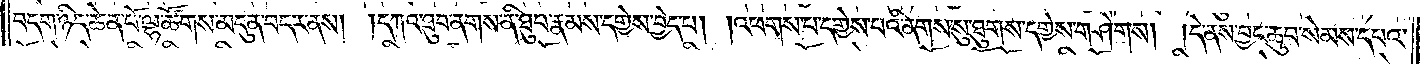བདག་ཉིད་ཆེན་པོ་ལྷ་ཚོགས་མདུན་བདར་ནས། །དཀའ་ཐུབ་ནགས་ནི་ཐུབ་རྣམས་དགྱེས་བྱེད་པ། །འཕགས་པ་དགྱེས་པའི་ནགས་སུ་ཐུགས་དགྱེས་གཤེགས། །དེ་ནས་བྱང་ཆུབ་སེམས་དཔའ་
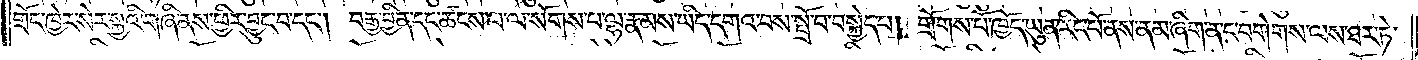གྲོང་ཁྱེར་སེར་སྐྱའི་གཞི་ནས་ཕྱིར་བྱུང་བ་དང༌། བརྒྱ་བྱིན་དང་ཚངས་པ་ལ་སོགས་པ་ལྷ་རྣམས་ཡིད་དགའ་བས་སྤྲོ་བ་བསྐྱེད་པ། གྲོགས་པོ་ཁྱོད་ཡུན་རིང་པོ་ནས་ནམ་ཞིག་ན་ང་བགེགས་ལས་ཐར་ཏེ་
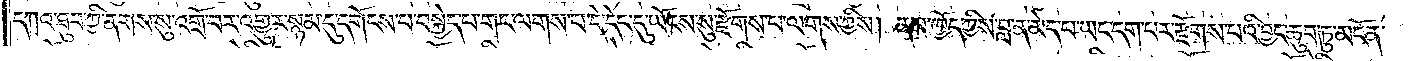དཀའ་ཐུབ་ཀྱི་ནགས་སུ་འགྲོ་བར་འགྱུར་སྙམ་དུ་དགོངས་པ་བསྐྱེད་པ་གང་ལགས་པ་དེ་དེང་དུ་ཡོངས་སུ་རྫོགས་པ་ལགས་ཀྱིས། ནམ་ཁྱོད་ཀྱིས་བླ་ན་མེད་པ་ཡང་དག་པར་རྫོགས་པའི་བྱང་ཆུབ་ཏུ་མངོན་
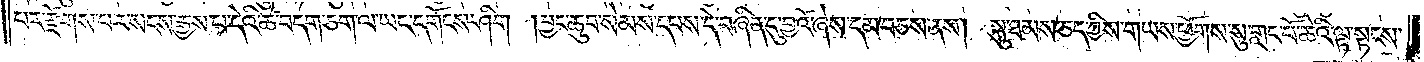པར་རྫོགས་པར་སངས་རྒྱས་པ་དེའི་ཚེ་བདག་ཅག་ལ་ཡང་དགོངས་ཤིག །བྱང་ཆུབ་སེམས་དཔས་དེ་བཞིན་དུ་བྱའོ་ཞེས་དམ་བཅས་ནས། སྐུ་ཐམས་ཅད་ཀྱིས་གཡས་ཕྱོགས་སུ་གླང་པོ་ཆེའི་ལྟ་སྟངས་
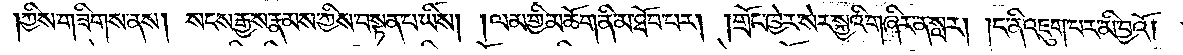།ཀྱིས་གཟིགས་ནས། སངས་རྒྱས་རྣམས་ཀྱིས་བསྟན་པ་ཡིས། །ལམ་གྱི་མཆོག་ནི་མ་ཐོབ་པར། །གྲོང་ཁྱེར་སེར་སྐྱའི་གཞིར་ན་སླར། །ང་ནི་འཇུག་པར་མི་བྱའོ། །
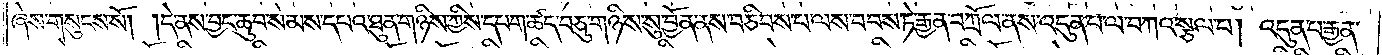ཞེས་གསུངས་སོ། །དེ་ནས་བྱང་ཆུབ་སེམས་དཔའ་ཐུན་གཉིས་ཀྱིས་དཔག་ཚད་བཅུ་གཉིས་སུ་བྱོན་ནས་བཅིབས་པ་ལས་བབས་ཏེ་རྒྱན་བཀྲོལ་ནས་འདུན་པ་ལ་བཀའ་སྩལ་པ། འདུན་པ་རྒྱན་
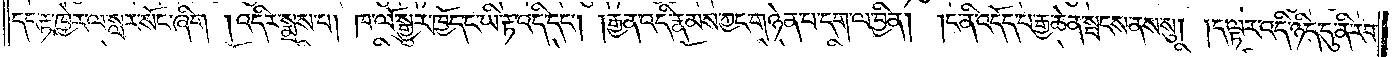དང་རྟ་ཁྱེར་ལ་སླར་སོང་ཞིག །འདིར་སྨྲས་པ། ཁ་ལོ་སྒྱུར་ཁྱོད་ང་ཡི་རྟ་འདི་དང༌། །རྒྱན་འདི་རྣམས་ཀྱང་གཉེན་པ་དག་ལ་བྱིན། །ང་ནི་འདོད་པ་རྒྱ་ཆེན་སྤངས་ནས་སུ། །ད་ལྟར་འདི་ཉིད་དུ་ནི་རབ་
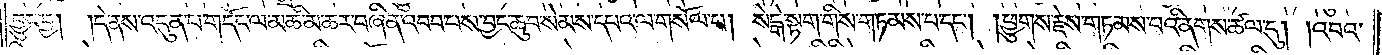བྱུང་བྱ། །དེ་ནས་འདུན་པ་གདོང་ལ་མཆི་མ་ཆར་བཞིན་འབབ་པས་བྱང་ཆུབ་སེམས་དཔའ་ལ་གསོལ་པ། སེངྒེ་སྟག་གིས་གཏམས་པ་དང༌། །ཕྱུགས་རྗེས་གཏམས་པའི་ནགས་ཚལ་དུ། །འབའ་
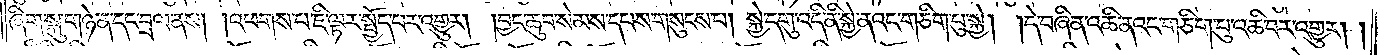ཞིག་སྐུ་གཉེན་དང་བྲལ་ནས། །འཕགས་པ་ཇི་ལྟར་སྤྱོད་པར་འགྱུར། །བྱང་ཆུབ་སེམས་དཔས་གསུངས་པ། སྐྱེ་དགུ་འདི་ནི་སྐྱེ་ནའང་གཅིག་པུ་སྐྱེ། །དེ་བཞིན་འཆི་ནའང་གཅིག་པུ་འཆི་བར་འགྱུར། །
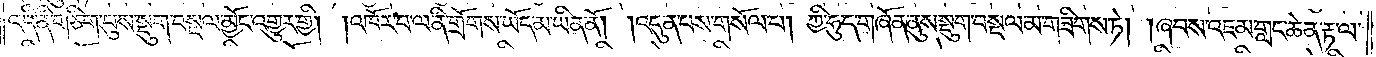འདི་ནི་གཅིག་པུས་སྡུག་བསྔལ་མྱོང་འགྱུར་གྱི། །འཁོར་བ་ལ་ནི་གྲོགས་ཡོད་མ་ཡིན་ནོ། །འདུན་པས་གསོལ་པ། ཀྱི་ཧུད་གཞོན་ནུས་སྡུག་བསྔལ་མ་གཟིགས་ཏེ། །ཞབས་འཇམ་གླང་ཆེན་རྟ་ལ་
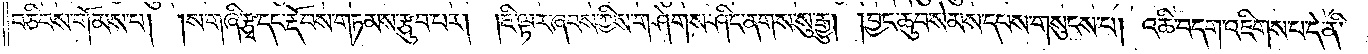བཅིབས་གོམས་པ། །ས་གཞི་རྩྭ་དང་རྡོ་བས་གཏམས་རྩུབ་པར། །ཇི་ལྟར་ཞབས་ཀྱིས་གཤེགས་ཤིང་ནགས་སུ་རྒྱུ། །བྱང་ཆུབ་སེམས་དཔས་གསུངས་པ། འཆི་བདག་འཇིགས་པ་དེ་ནི་
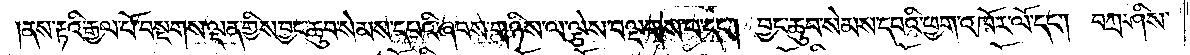།ནས་རྟའི་རྒྱལ་པོ་སྔགས་ལྡན་གྱིས་བྱང་ཆུབ་སེམས་དཔའི་ཞབས་གཉིས་ལ་ལྕེས་བལྡགས་པ་དང༌། བྱང་ཆུབ་སེམས་དཔའི་ཕྱག་འཁོར་ལོ་དང༌། བཀྲ་ཤིས་
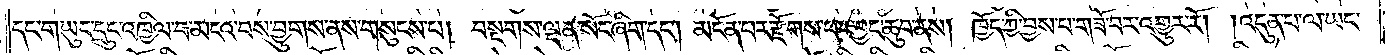དང་གཡུང་དྲུང་འཁྱིལ་བ་མངའ་བས་བྱུགས་ནས་གསུངས་པ། བསྔགས་ལྡན་སོང་ཞིག་དང༌། མངོན་པར་རྫོགས་པར་བྱང་ཆུབ་ནས། ཁྱོད་ཀྱི་བྱས་པ་གཟོ་བར་འགྱུར་རོ། །འདུན་པ་ལ་ཡང་
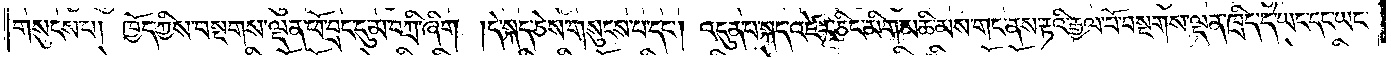གསུངས་པ། ཁྱོད་ཀྱིས་བསྔགས་ལྡན་ཕོ་བྲང་དུ་མ་བཀྲི་ཞིག །དེ་སྐད་ཅེས་གསུངས་པ་དང༌། འདུན་པ་སྐད་འཛེར་ཅིང་མིག་མཆིམས་གང་ནས་རྟའི་རྒྱལ་པོ་བསྔགས་ལྡན་ཁྲིད་དེ་ཡང་དང་ཡང་
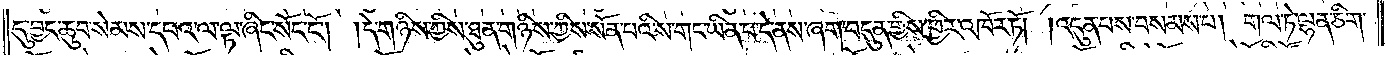དུ་བྱང་ཆུབ་སེམས་དཔའ་ལ་ལྟ་ཞིང་སོང་ངོ༌། །དེ་གཉིས་ཀྱིས་ཐུན་གཉིས་ཀྱིས་སོན་པའི་ས་གང་ཡིན་པ་དེ་ནས་ཞག་བདུན་གྱིས་ཕྱིར་འཁོར་ཏོ། །འདུན་པས་བསམས་པ། གལ་ཏེ་ལྷན་ཅིག་
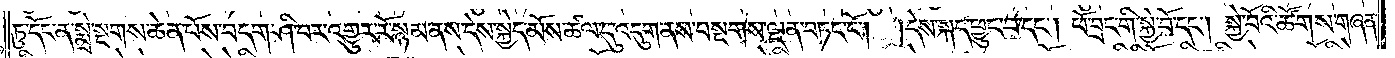ཏུ་དོང་ན་སྨྲེ་སྔགས་ཆེན་པོས་བདག་ཤི་བར་འགྱུར་རོ་སྙམ་ནས་དེས་སྐྱེད་མོས་ཚལ་དུ་འདུག་ནས་བསྔགས་ལྡན་བཏང་ངོ༌། །དེས་སྐད་ཕྱུང་བ་དང༌། ཕོ་བྲང་གི་སྐྱེ་བོ་དང༌། སྐྱེ་བོའི་ཚོགས་གཞན་
